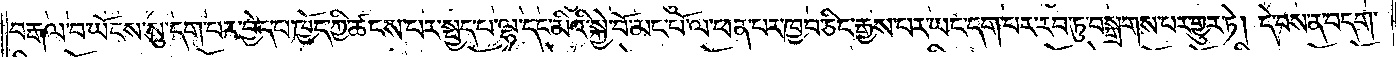བརྒལ་བ་ཡོངས་སུ་དག་པར་བྱེད་པ་ཁྱོད་ཀྱི་ཚངས་པར་སྤྱད་པ་ལྷ་དང་མིའི་སྐྱེ་བོ་མང་པོ་ལ་ཕན་པར་ཁྱབ་ཅིང་རྒྱས་པར་ཡང་དག་པར་རབ་ཏུ་བསྒྲགས་པར་གྱུར་ཏེ། དེ་བས་ན་བདག་
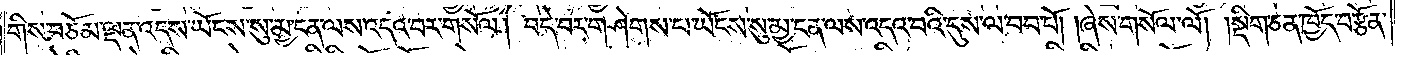གིས་བཅོམ་ལྡན་འདས་ཡོངས་སུ་མྱ་ངན་ལས་འདའ་བར་གསོལ། བདེ་བར་གཤེགས་པ་ཡོངས་སུ་མྱ་ངན་ལས་འདའ་བའི་དུས་ལ་བབ་བོ། །ཞེས་གསོལ་ལོ། །སྡིག་ཅན་ཁྱོད་བརྩོན་
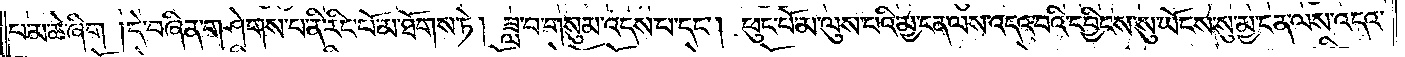པ་མ་ཆེ་ཞིག །དེ་བཞིན་གཤེགས་པ་ནི་རིང་པོ་མ་ཐོགས་ཏེ། ཟླ་བ་གསུམ་འདས་པ་དང༌། ཕུང་པོ་མ་ལུས་པའི་མྱ་ངན་ལས་འདའ་བའི་དབྱིངས་སུ་ཡོངས་སུ་མྱ་ངན་ལས་འདའ་
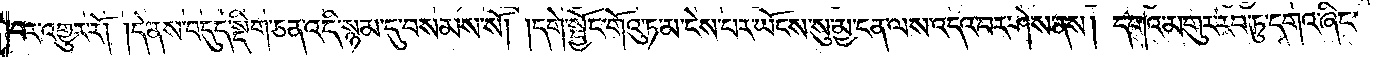བར་འགྱུར་རོ། །དེ་ནས་བདུད་སྡིག་ཅན་འདི་སྙམ་དུ་བསམས་སོ། །དགེ་སྦྱོང་གོའུ་ཏ་མ་ངེས་པར་ཡོངས་སུ་མྱ་ངན་ལས་འདའ་བར་ཤེས་ནས། དགའ་མགུར་རབ་ཏུ་དགའ་ཞིང་
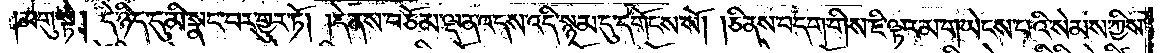མགུ་སྟེ། དེ་ཉིད་དུ་མི་སྣང་བར་གྱུར་ཏོ། །དེ་ནས་བཅོམ་ལྡན་འདས་འདི་སྙམ་དུ་དགོངས་སོ། །ཅི་ནས་བདག་གིས་ཇི་ལྟར་མ་གཡེངས་པའི་སེམས་ཀྱིས་
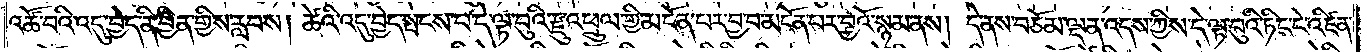འཚོ་བའི་འདུ་བྱེད་ནི་བྱིན་གྱིས་རླབས། ཚེའི་འདུ་བྱེད་སྤངས་པ་དེ་ལྟ་བུའི་རྫུ་འཕྲུལ་གྱི་མངོན་པར་བྱ་བ་མངོན་པར་བྱའོ་སྙམ་ནས། དེ་ནས་བཅོམ་ལྡན་འདས་ཀྱིས་དེ་ལྟ་བུའི་ཏིང་ངེ་འཛིན་
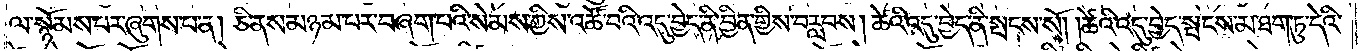ལ་སྙོམས་པར་ཞུགས་པ་ན། ཅི་ནས་མཉམ་པར་བཞག་པའི་སེམས་ཀྱིས་འཚོ་བའི་འདུ་བྱེད་ནི་བྱིན་གྱིས་བརླབས། ཚེའི་འདུ་བྱེད་ནི་སྤངས་སོ། །ཚེའི་འདུ་བྱེད་སྤངས་མ་ཐག་ཏུ་དེའི་
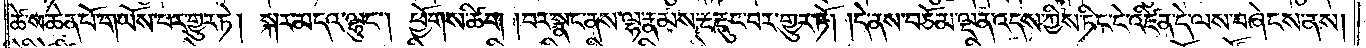ཚེ་ས་ཆེན་པོ་གཡོས་པར་གྱུར་ཏེ། སྐར་མདའ་ལྷུང༌། ཕྱོགས་ཚིག །བར་སྣང་ནས་ལྷ་རྣམས་རྔ་རྡུང་བར་གྱུར་ཏོ། །དེ་ནས་བཅོམ་ལྡན་འདས་ཀྱིས་ཏིང་ངེ་འཛིན་དེ་ལས་བཞེངས་ནས།
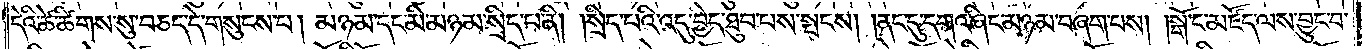དེའི་ཚེ་ཚིགས་སུ་བཅད་དེ་གསུངས་པ། མཉམ་དང་མི་མཉམ་སྲིད་པ་ནི། །སྲིད་པའི་འདུ་བྱེད་ཐུབ་པས་སྤངས། །ནང་དུ་དགའ་ཞིང་མཉམ་བཞག་པས། །སྒོ་ང་མཛོད་ལས་བྱུང་བ་
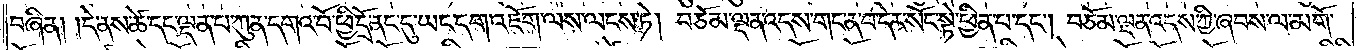བཞིན། །དེ་ནས་ཚེ་དང་ལྡན་པ་ཀུན་དགའ་བོ་ཕྱི་དྲོ་ནང་དུ་ཡང་དག་འཇོག་ལས་ལངས་ཏེ། བཅོམ་ལྡན་འདས་གང་ན་བ་དེར་སོང་སྟེ་ཕྱིན་པ་དང༌། བཅོམ་ལྡན་འདས་ཀྱི་ཞབས་ལ་མགོ་
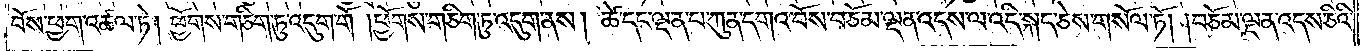བོས་ཕྱག་འཚལ་ཏེ། ཕྱོགས་གཅིག་ཏུ་འདུག་གོ །ཕྱོགས་གཅིག་ཏུ་འདུག་ནས། ཚེ་དང་ལྡན་པ་ཀུན་དགའ་བོས་བཅོམ་ལྡན་འདས་ལ་འདི་སྐད་ཅེས་གསོལ་ཏོ། །བཅོམ་ལྡན་འདས་ཅིའི་
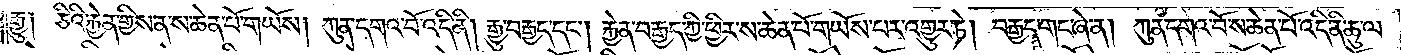རྒྱུ༑ ཅིའི་རྐྱེན་གྱིས་ན་ས་ཆེན་པོ་གཡོས། ཀུན་དགའ་བོ་འདི་ནི། རྒྱུ་བརྒྱད་དང༌། རྐྱེན་བརྒྱད་ཀྱི་ཕྱིར་ས་ཆེན་པོ་གཡོས་པར་འགྱུར་ཏེ། བརྒྱད་གང་ཞེ་ན། ཀུན་དགའ་བོ་ས་ཆེན་པོ་འདི་ནི་ཆུ་ལ་
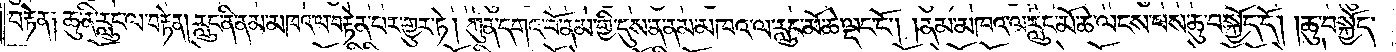བརྟེན༑ ཆུ་ནི་རླུང་ལ་བརྟེན། རླུང་ནི་ནམ་མཁའ་ལ་བརྟེན་པར་གྱུར་ཏེ། ཀུན་དགའ་བོ་ནམ་གྱི་དུས་ན་ནམ་མཁའ་ལ་རླུང་མོ་ཆེ་ལྡང་ངོ༌། །ནམ་མཁའ་ལ་རླུང་མོ་ཆེ་ལངས་པས་ཆུ་བསྐྱོད་དོ། །ཆུ་བསྐྱོད་
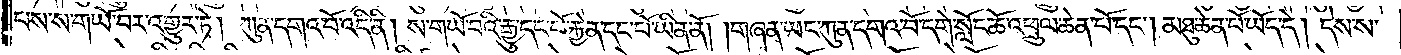པས་ས་གཡོ་བར་འགྱུར་ཏེ། ཀུན་དགའ་བོ་འདི་ནི། ས་གཡོ་བའི་རྒྱུ་དང་པོ་རྐྱེན་དང་པོ་ཡིན་ནོ། །གཞན་ཡང་ཀུན་དགའ་བོ་དགེ་སློང་ཆོ་འཕྲུལ་ཆེན་པོ་དང༌། མཐུ་ཆེན་པོ་ཡོད་དེ། དེས་ས་
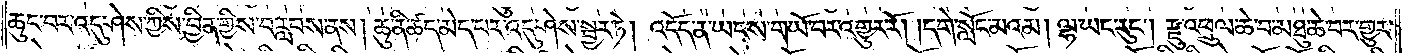ཆུང་བར་འདུ་ཤེས་ཀྱིས་བྱིན་གྱིས་བརླབས་ནས། ཆུ་ནི་ཚད་མེད་པར་འདུ་ཤེས་སྦྱར་ཏེ། འདོད་ན་ཡང་ས་གཡོ་བར་འགྱུར་རོ། །དགེ་སློང་མའམ། ལྷ་ཡང་རུང༌། རྫུ་འཕྲུལ་ཆེ་བ་མཐུ་ཆེ་བར་གྱུར་
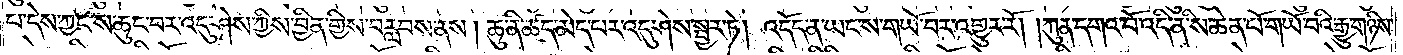པ་དེས་ཀྱང་ས་ཆུང་བར་འདུ་ཤེས་ཀྱིས་བྱིན་གྱིས་བརླབས་ནས། ཆུ་ནི་ཚད་མེད་པར་འདུ་ཤེས་སྦྱར་ཏེ། འདོད་ན་ཡང་ས་གཡོ་བར་འགྱུར་རོ། །ཀུན་དགའ་བོ་འདི་ནི་ས་ཆེན་པོ་གཡོ་བའི་རྒྱུ་གཉིས་
